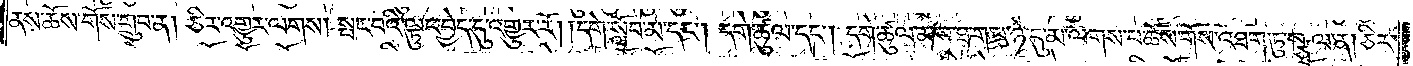ནས་ཆོས་གོས་གྲུབ་ན། ཅིར་འགྱུར་ལགས། སྤང་བའི་ལྟུང་བྱེད་དུ་འགྱུར་རོ། །དགེ་སློང་མ་དང༌། དགེ་ཚུལ་དང༌། དགེ་ཚུལ་མས་ཐ་ག་པ་ཉེ་དུ་མ་ལགས་པ་ཆོས་གོས་འཐག་ཏུ་སྩལ་ན། ཅིར་
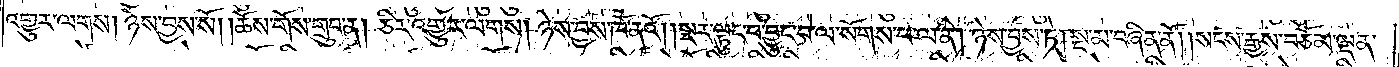འགྱུར་ལགས། ཉེས་བྱས་སོ། །ཆོས་གོས་གྲུབ་ན། ཅིར་འགྱུར་ལགས། ཉེས་བྱས་ཁོ་ནའོ། །སྔར་ལྟུང་བ་བྱུང་བ་ལ་སོགས་པ་ལ་ནི། ཉེས་བྱས་ཏེ། སྔ་མ་བཞིན་ནོ། །སངས་རྒྱས་བཅོམ་ལྡན་
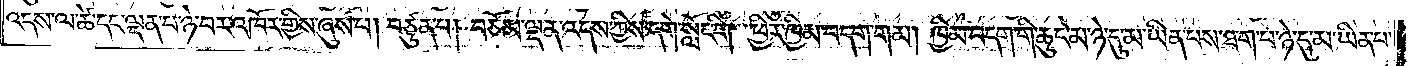འདས་ལ་ཚེ་དང་ལྡན་པ་ཉེ་བར་འཁོར་གྱིས་ཞུས་པ། བཙུན་པ། བཅོམ་ལྡན་འདས་ཀྱིས་དགེ་སློང་གི་ཕྱིར་ཁྱིམ་བདག་གམ། ཁྱིམ་བདག་གི་ཆུང་མ་ཉེ་དུ་མ་ཡིན་པས་ཐ་ག་པ་ཉེ་དུ་མ་ཡིན་པ་
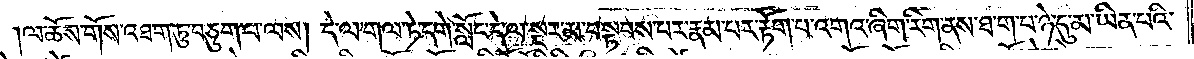།ལ་ཆོས་གོས་འཐག་ཏུ་བཅུག་པ་ལས། དེ་ལ་གལ་ཏེ་དགེ་སློང་དེ་ལ་སྔར་མ་བསྟབས་པར་རྣམ་པར་རྟོག་པ་འགའ་ཞིག་རིག་ནས་ཐ་ག་པ་ཉེ་དུ་མ་ཡིན་པའི་
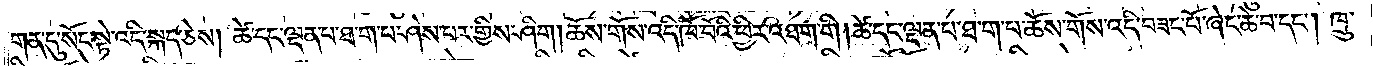གན་དུ་སོང་སྟེ་འདི་སྐད་ཅེས། ཚེ་དང་ལྡན་པ་ཐ་ག་པ་ཤེས་པར་གྱིས་ཤིག །ཆོས་གོས་འདི་ཁོ་བོའི་ཕྱིར་འཐག་གི། ཚེ་དང་ལྡན་པ་ཐ་ག་པ་ཆོས་གོས་འདི་བཟང་པོ་ཞེང་ཆེ་བ་དང༌། ཁྲུ་
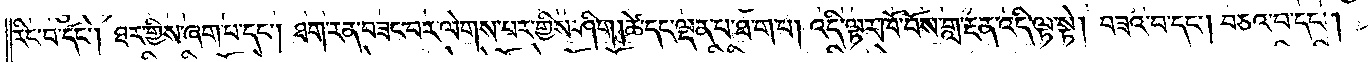རིང་བ་དང༌། ཐར་གྱིས་ཞག་པ་དང༌། ཐག་རན་བཟང་བར་ལེགས་པར་གྱིས་ཤིག །ཚེ་དང་ལྡན་པ་ཐ་ག་པ། འདི་ལྟར་ཁོ་བོས་གླ་རྔན་འདི་ལྟ་སྟེ། བཟའ་བ་དང༌། བཅའ་བ་དང༌།
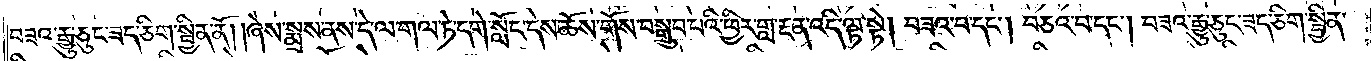བཟའ་རྒྱུ་ཅུང་ཟད་ཅིག་སྦྱིན་ནོ། །ཞེས་སྨྲས་ནས་དེ་ལ་གལ་ཏེ་དགེ་སློང་དེས་ཆོས་གོས་བསྒྲུབ་པའི་ཕྱིར་གླ་རྔན་འདི་ལྟ་སྟེ། བཟའ་བ་དང༌། བཅའ་བ་དང༌། བཟའ་རྒྱུ་ཅུང་ཟད་ཅིག་སྦྱིན་
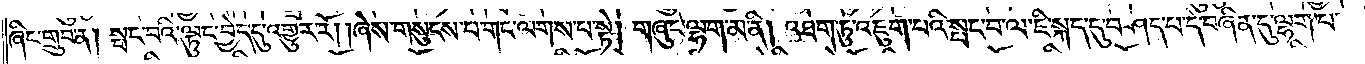ཞིང་གྲུབ་ན། སྤང་བའི་ལྟུང་བྱེད་དུ་འགྱུར་རོ། །ཞེས་གསུངས་པ་གང་ལགས་པ་སྟེ། གཞུང་ལྷག་མ་ནི། འཐག་ཏུ་འཇུག་པའི་སྤང་བ་ལ་ཇི་སྐད་དུ་བཤད་པ་དེ་བཞིན་དུ་ལྷག་པ་
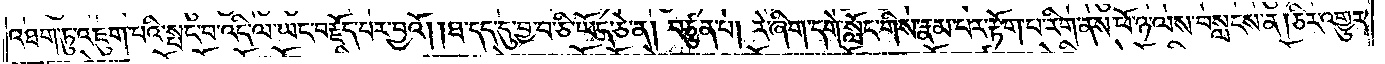འཐག་ཏུ་འཇུག་པའི་སྤང་བ་འདི་ལ་ཡང་བརྗོད་པར་བྱའོ། །ཐ་དད་དུ་བྱ་བ་ཅི་ཡོད་ཅེ་ན། བཙུན་པ། རེ་ཞིག་དགེ་སློང་གིས་རྣམ་པར་རྟོག་པ་རིག་ནས་ཕོ་ཉ་ལས་བསླངས་ན། ཅིར་འགྱུར་
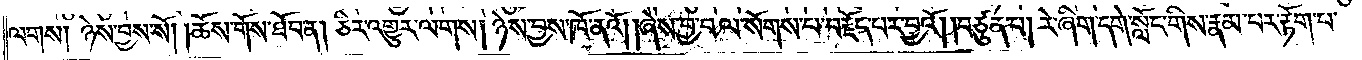ལགས། ཉེས་བྱས་སོ། །ཆོས་གོས་ཐོབ་ན། ཅིར་འགྱུར་ལགས། ཉེས་བྱས་ཁོ་ནའོ། །ཞེས་བྱ་བ་ལ་སོགས་པ་བརྗོད་པར་བྱའོ། །བཙུན་པ། རེ་ཞིག་དགེ་སློང་གིས་རྣམ་པར་རྟོག་པ་
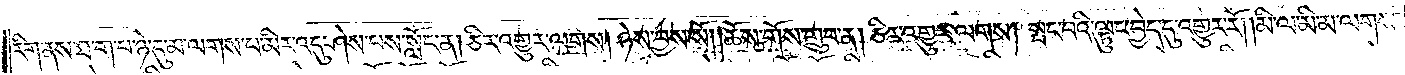རིག་ནས་ཐ་ག་པ་ཉེ་དུ་མ་ལགས་པ་མིར་འདུ་ཤེས་པས་སློང་ན། ཅིར་འགྱུར་ལགས། ཉེས་བྱས་སོ། །ཆོས་གོས་གྲུབ་ན། ཅིར་འགྱུར་ལགས། སྤང་བའི་ལྟུང་བྱེད་དུ་འགྱུར་རོ། །མི་ལ་མི་མ་ལགས་
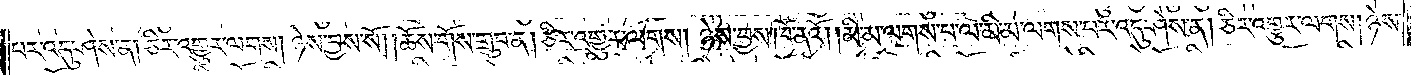པར་འདུ་ཤེས་ན། ཅིར་འགྱུར་ལགས། ཉེས་བྱས་སོ། །ཆོས་གོས་གྲུབ་ན། ཅིར་འགྱུར་ལགས། ཉེས་བྱས་ཁོ་ནའོ། །མི་མ་ལགས་པ་ལ་མི་མ་ལགས་པར་འདུ་ཤེས་ན། ཅིར་འགྱུར་ལགས། ཉེས་
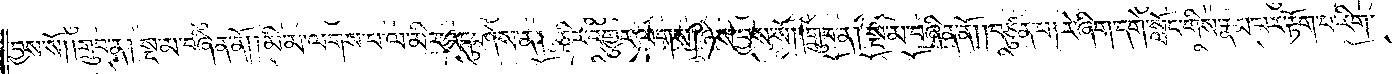བྱས་སོ། །གྲུབ་ན། སྔ་མ་བཞིན་ནོ། །མི་མ་ལགས་པ་ལ་མིར་འདུ་ཤེས་ན། ཅིར་འགྱུར་ལགས། ཉེས་བྱས་སོ། །གྲུབ་ན། སྔ་མ་བཞིན་ནོ། །བཙུན་པ། རེ་ཞིག་དགེ་སློང་གིས་རྣམ་པར་རྟོག་པ་རིག་
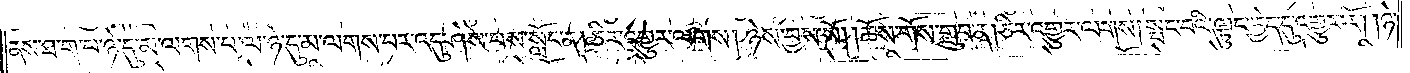ནས་ཐ་ག་པ་ཉེ་དུ་མ་ལགས་པ་ལ་ཉེ་དུ་མ་ལགས་པར་འདུ་ཤེས་པས་སློང་ན། ཅིར་འགྱུར་ལགས། ཉེས་བྱས་སོ། །ཆོས་གོས་གྲུབ་ན། ཅིར་འགྱུར་ལགས། སྤང་བའི་ལྟུང་བྱེད་དུ་འགྱུར་རོ། །ཉེ་
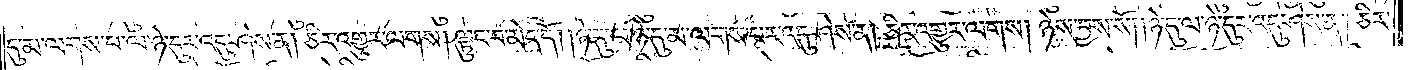དུ་མ་ལགས་པ་ལ་ཉེ་དུར་འདུ་ཤེས་ན། ཅིར་འགྱུར་ལགས། ལྟུང་བ་མེད་དོ། །ཉེ་དུ་ལ་ཉེ་དུ་མ་ལགས་པར་འདུ་ཤེས་ན། ཅིར་འགྱུར་ལགས། ཉེས་བྱས་སོ། །ཉེ་དུ་ལ་ཉེ་དུར་འདུ་ཤེས་ན། ཅིར་
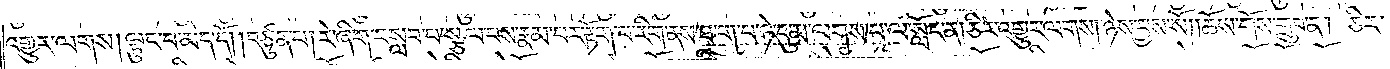འགྱུར་ལགས། ལྟུང་བ་མེད་དོ། །བཙུན་པ། རེ་ཞིག་བསླབ་པ་སྩལ་པས་རྣམ་པར་རྟོག་པ་རིག་ནས་ཐ་ག་པ་ཉེ་དུ་མ་ལགས་པ་ལ་སློང་ན། ཅིར་འགྱུར་ལགས། ཉེས་བྱས་སོ། །ཆོས་གོས་གྲུབ་ན། ཅིར་
